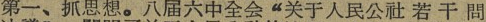第一、抓思想。八届六中全会“关于人民公社若 干 問
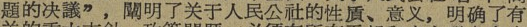題的决議”，闡明了关于人民公社的性貭、意义、明确了有
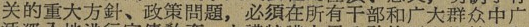关的重大方針、政策問題，必須在所有干部和广大群众中广
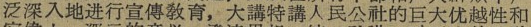泛深入地进行宣傳敎育，大講特講人民公社的巨大优越性和
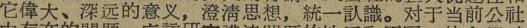它偉大、深远的意义，澄清思想，統一认識。对于当前公社
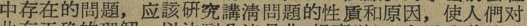中存在的問題，应該研究講清問題的性貭和原因，使人們对
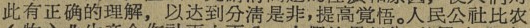此有正确的理解，以达到分清是非、提高覚悟。人民公社比农
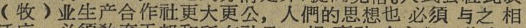（牧）业生产合作社更大更公，人們的思想也 必須 与之 相
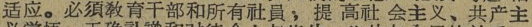适应。必須敎育干部和所有社員，提 高社 会主义、共产主
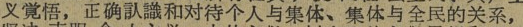义覚悟，正确认識和对待个人与集体、集体与全民的关系，
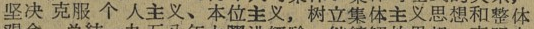坚决 克服 个 人主义、本位主义，树立集体主义思想和整体
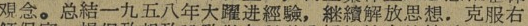覌念。总結一九五八年大躍进經驗，継續解放思想，克服右
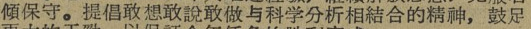傾保守。提倡敢想敢說敢做与科学分析相結合的精神，鼓足
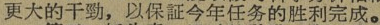更大的干勁，以保証今年任务的胜利完成 。
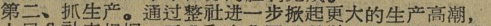第二、抓生产，通过整社进一步掀起更大的生产高潮，
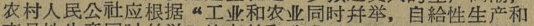农村人民公社应根据“工业和农业同时并举，自給性生产和
